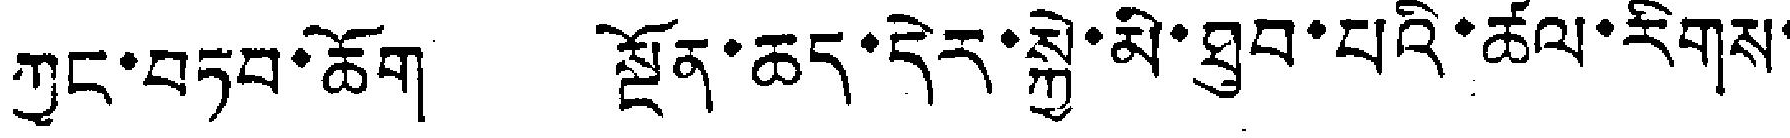ཀྱང་བཏབ་ཆོག སྔོན་ཆད་དེར་སྐྱེ་མི་ཐུབ་པའི་ཚལ་རིགས་
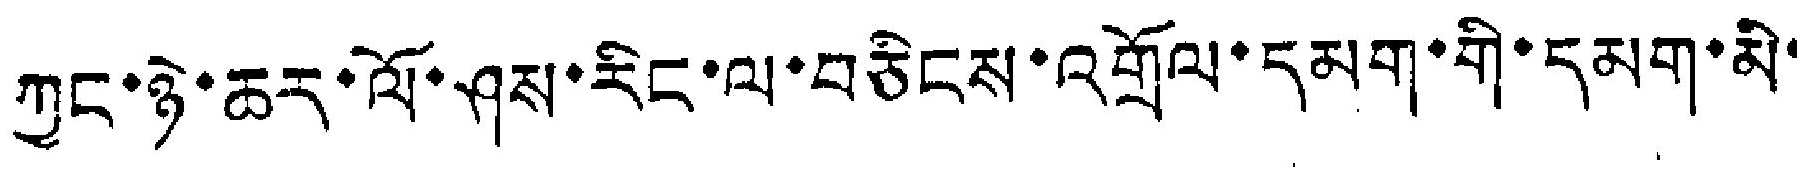ཀྱང་ཉེ་ཆར་ལོ་ཤས་རིང་ལ་བཅིངས་འགྲོལ་དམག་གི་དམག་མི་
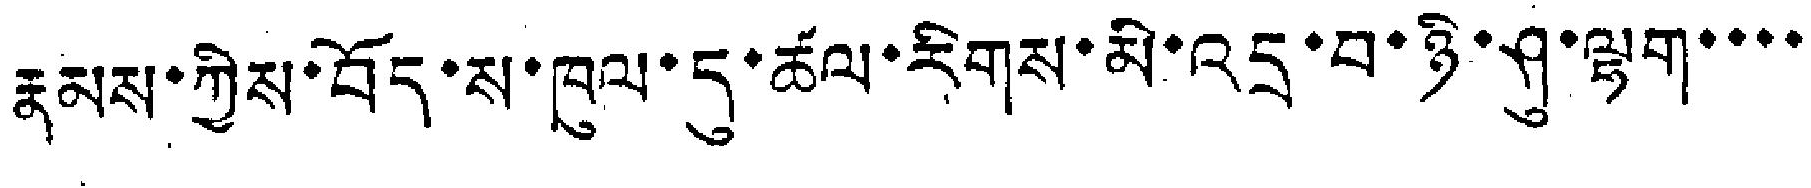རྣམས་ཀྱིས་བོད་ས་ཁུལ་དུ་ཚལ་རིགས་མི་འདྲ་བ་ཉི་ཤུ་ལྷག་་་་
